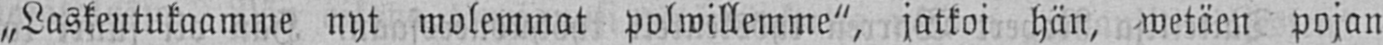„Laskeutukaamme nyt molemmat polwillemme", jatkoi hän, wetäen pojan
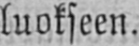luokseen.
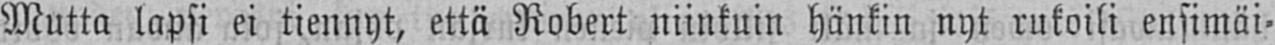Mutta lapsi ei tiennyt, että Robert niinkuin hänkin nyt rukoili ensimäi-
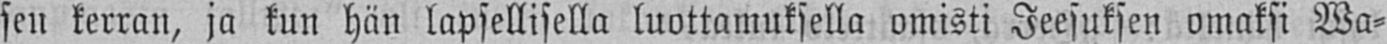sen kerran, ja kun hän lapsellisella luottamuksella omisti Jeesuksen omaksi Wa-
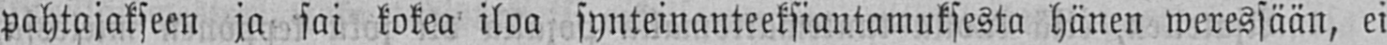pahtajakseen ja sai kokea iloa synteinanteeksiantamuksesta hänen weressään, ei
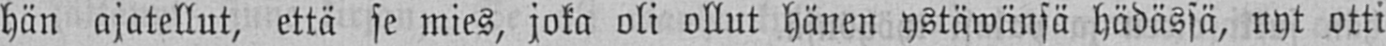hän ajatellut, että se mies, joka oli ollut hänen ystäwänsä hädässä, nyt otti
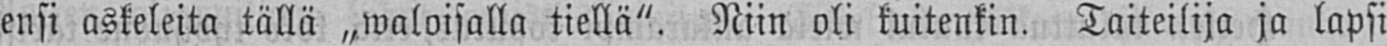ensi askeleita tällä „waloisalla tiellä". Niin oli kuitenkin. Taiteilija ja lapsi
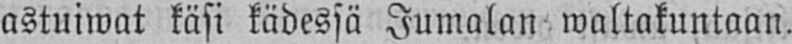astuiwat käsi kädessä Jumalan waltakuntaan.
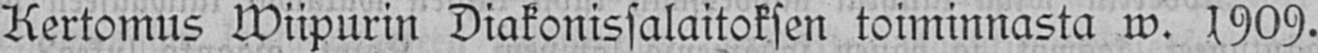Kertomus Wiipurin Diakonissalaitoksen toiminnasta w. 1909.
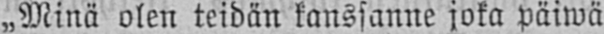„Minä olen teidän kanssanne joka päiwä
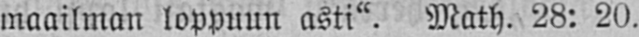maailman loppuun asti". Math. 28: 20.
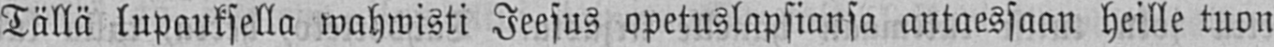Tällä lupauksella wahwisti Jeesus opetuslapsiansa antaessaan heille tuon
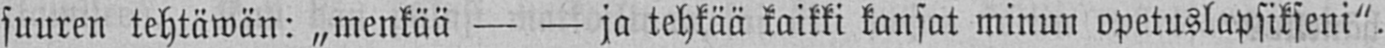suuren tehtäwän: „menkää — — ja tehkää kaikki kansat minun opetuslapsikseni".
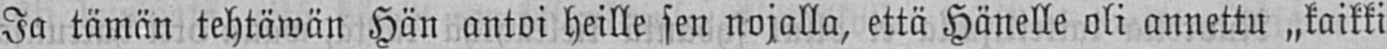Ja tämän tehtäwän Hän antoi heille sen nojalla, että Hänelle oli annettu „kaikki
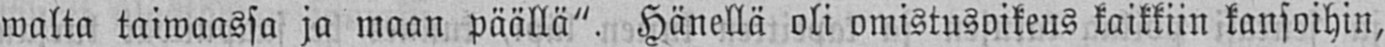walta taiwaassa ja maan päällä". Hänellä oli omistusoikeus kaikkiin kansoihin,
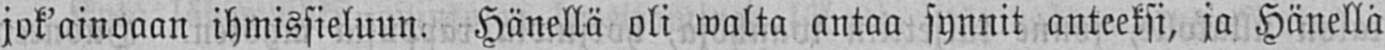jok'ainoaan ihmissieluun. Hänellä oli walta antaa synnit anteeksi, ja Hänellä
